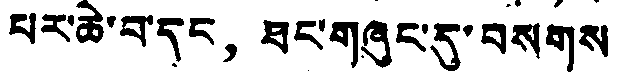པར་ཆེ་བ་དང， ཐང་གཞུང་དུ་བསགས
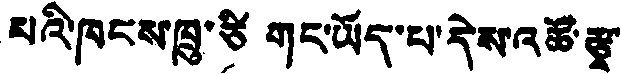པའི་ཁུངས་ཁྲུ་ཙི གང་ཡོད་པ་དེས་འཚོ་རྩྭ་
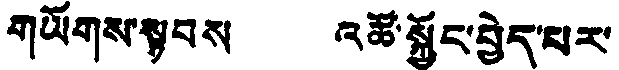གཡོགས་སྟབས འཚོ་སྐྱོང་བྱེད་པར་
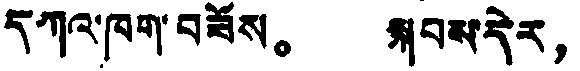དཀའ་ཁག་བཟོས。 སྐབས་དེར，
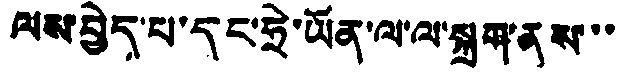ལས་བྱེད་པ་དང་ཧྲེ་ཡོན་ལ་ལ་སྐྲག་ནས་་་
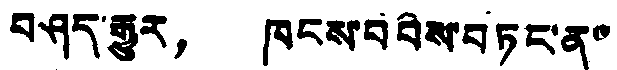བཤད་རྒྱུར， ཁུངས་བབེས་བཏང་ན་
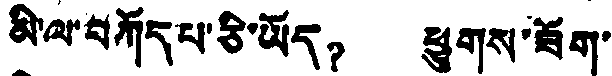མི་ལ་བཀོདཔ་ཅི་ཡོད？ ཕྱུགས་ཟོག་
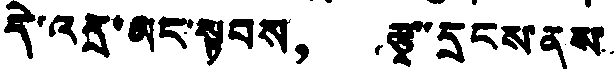དེ་འདྲ་མང་སྟབས， རྩྭ་དྲངས་ནས
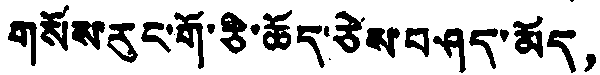གསོས་རུང་གོ་ཅི་ཆོད་ཅེས་བཤད་མོད，
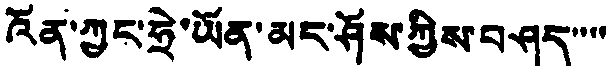འོན་ཀྱང་ཧྲེ་ཡོན་མང་ཤོས་ཀྱིས་བཤད་་་་
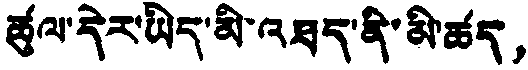ཚུལ་དེར་ཡིད་མི་འཐད་ནི་མི་ཚད，
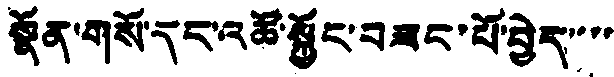སྣོན་གསོ་དང་འཚོ་སྐྱོང་བཟང་པོ་བྱེད་་་་
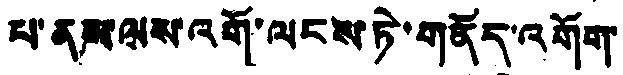པ་ནས ལས་འགོ་ལངས་ཏེ་གནོད་འགོག་
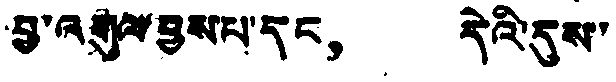བྱ་འགུལ་བྱས་པ་དང， དེའི་དུས་
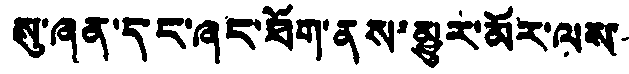སུ་ཞན་དང་ཞང་ཐོག་ནས་མྱུར་མོར་ལས་
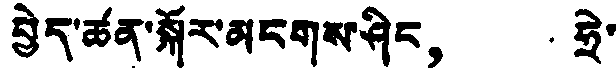བྱེད་ཚན་སྐོར་མངགས་ཤིང， ཧྲེ་
